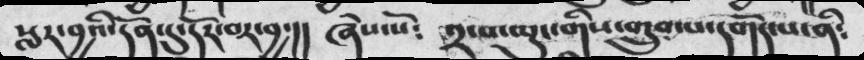སླར་བྱའི་དོན་དུ་དོར་བར་བྱ་།།    ཞེས་སོ༴    ༢་པ་ལུང་གིས་གྲུབ་པ་དགོད་པ་ནི༴
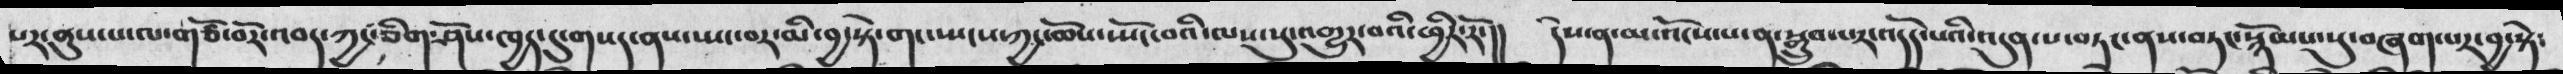པར་ནུས་པ་ལ་གཙོ་བོར་འབད་ཀྱང་ཅིག་ཤོས་ཁྱད་དུ་གསད་ནས་སསྤང་བར་མི་བྱ་སྟེ་གང་སྤངས་ཀྱང་ཆོས་སྤོང་བའི་ལས་སུ་འགྱུར་བའི་ཕྱིར་རོ་།།   དེས་ན་མ་འོངས་པ་ན་སྒྲུབ་པར་འདོད་པའི་འདུན་པ་བཏང་ནས་བཏང་སྙོམས་སུ་བཞག་པར་བྱ་སྟེ༴
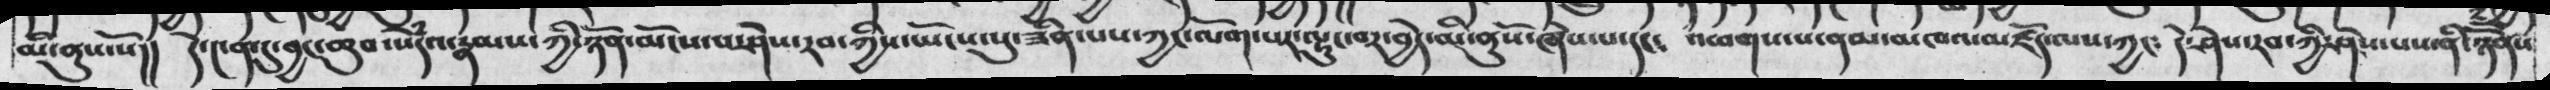མི་ནུས་སོ།།  དེ་༤ན་དུ་བྱང་ཆུབ་སེཾདའ་རྣམས་ཀྱི་ཉོན་མོངས་ཤེས་རབ་ཀྱིས་ཡོངས་སུ་ཟིན་པས་ཀྱང་ལོག་པར་ལྟུང་བར་བྱེད་མི་ནུསོ་ཞེས་པ་དང༴  འཕགས་པ་ནམ་མཁའ་མཛོད་ལས་ཀྱང༴  དེ་ཤེས་རབ་ཀྱི་ཤེས་པས་ནི་ཉོོནས
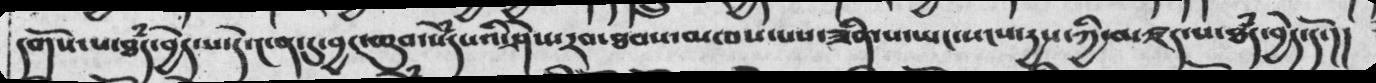དགོས་པ་ཐཾད་བྱེད་པ་དེ་༤ན་དུ་བྱང་ཆུབ་སེཾདཔའི་ཤེས་རབ་ཐབས་མཁས་པས་ཟིན་པ་ཡང་སངས་དྱས་ཀྱི་མཛད་པ་ཐཾད་བྱེད་དོ་།།
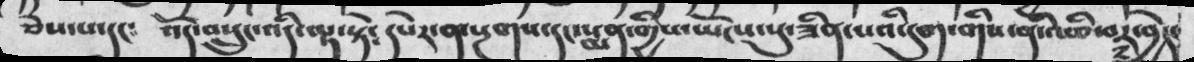ཅེས་པ་དང༴  འོད་བསྲུང་འདི་ལྟ་སྟེ༴ དཔེར་ན་སྔགས་དང་སྨན་གྱིས་ཡོངས་སུ་ཟིན་པའི་དུག་གིས་ནི་འཆི་བར་བྱེད་
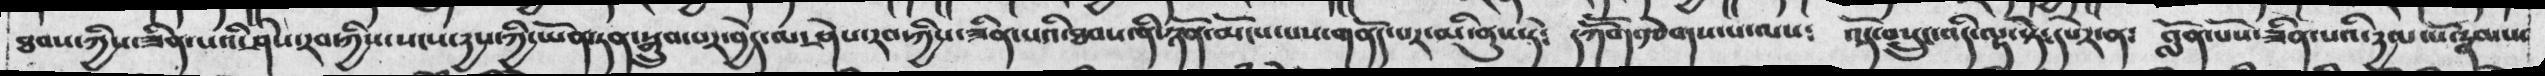ཐབས་ཀྱིས་ཟིན་པའི་ཤེས་རབ་ཀྱི་སངས་དྱས་ཀྱི་ཡོན་ཏན་སྒྲུབ་བར་བྱེད་ལ་ཤེས་རབ་ཀྱིས་ཟིན་པའི་ཐབས་ནི་སཉོན་མོངས་པས་གནོད་པར་མི་ནུས་དེ༴  དཀོོན་རྩེགས་པ་ལས༴  འོད་བསྲུང་འདི་ལྟ་སྟེ༴དཔེར་ན༴   བློན་པོས་ཟིན་པའི་དྱད་པོ་རྣམས་
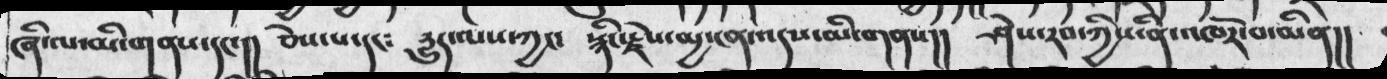ཞི་ལ་མི་གནས་དང་།།  ཅེས་པ་དང༴  རྱུད་ལས་ཀྱང༴  སྙིང་རྗེས་མྱ་ངན་འདས་མི་གནས།།  ཤེས་རབ་ཀྱིས་ནི་འཁོར་བ་མིན།།
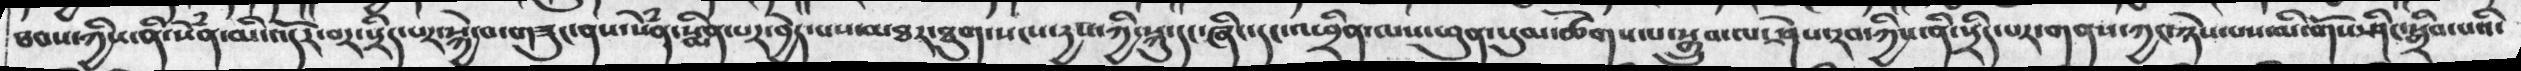ཐབས་ཀྱིས་ནི་སེཾན་མི་འདོར་བར་སྲིད་པར་སྐྱེ་བ་གཟུང་ནས་སེཾན་སྨིན་པར་བྱེད་པས་མཐར་ཐུག་སངས་རྱས་ཀྱི་སྐུ་དང་ཞིང་དང་འཕྲིན་ལས་ཕུན་སུམ་ཚོགས་པ་སྒྲུབ་ལ་ཤེས་རབ་ཀྱིས་ནི་སྲིད་པར་གནས་ཀྱང་ཉེས་པས་མི་གོས་ཤིང་སྒྲུབ་པའི་
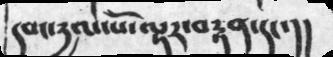དབང་དྱལ་པོ་ལྟར་བརྟན་དང་།།
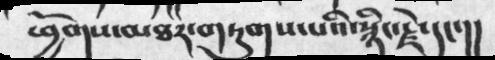ཕྱོགས་མཐར་གཏུགས་པའི་སྙིང་རྗེ་དང་།།
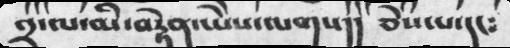༢་ལ་མི་བརྟེན་ཡེེས་ལགས།།  ཅེས་པ་དང༴
